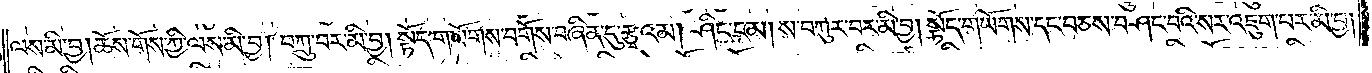ལས་མི་བྱ། ཆོས་གོས་ཀྱི་ལས་མི་བྱ། བཀྲུ་བར་མི་བྱ། སྟོད་གཡོགས་བགོས་བཞིན་དུ་རྩྭའམ། ཤིང་ངམ། ས་བཀུར་བར་མི་བྱ། སྟོད་གཡོགས་དང་བཅས་བཤང་བའི་སར་འཇུག་པར་མི་བྱ།
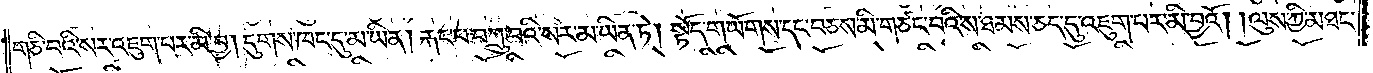གཅི་བའི་སར་འཇུག་པར་མི་བྱ། དུགས་ཁང་དུ་མ་ཡིན། རྐང་པ་བཀྲུ་བའི་སར་མ་ཡིན་ཏེ། སྟོད་གཡོགས་དང་བཅས་མི་གཙང་བའི་ས་ཐམས་ཅད་དུ་འཇུག་པར་མི་བྱའོ། །ལུས་ཀྱི་མཐང་
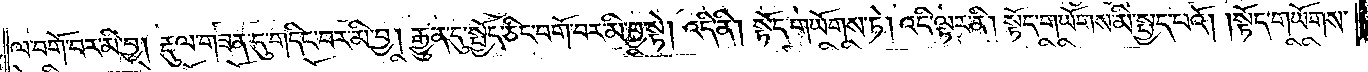ལ་བགོ་བར་མི་བྱ། རྡུལ་གཟན་དུ་གདིང་བར་མི་བྱ། རྒྱུན་དུ་སྤྱོད་ཅིང་བགོ་བར་མི་བྱ་སྟེ། འདི་ནི། སྟོད་གཡོགས་ཏེ། འདི་ལྟར་ནི། སྟོད་གཡོགས་མི་སྤྱད་པའོ། །སྟོད་གཡོགས་
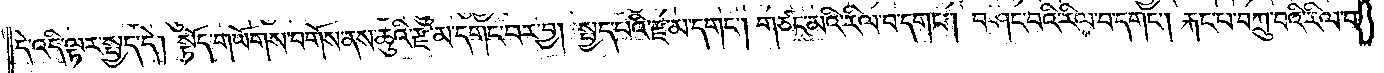དེ་འདི་ལྟར་སྤྱད་དེ། སྟོད་གཡོགས་བགོས་ནས་ཆུའི་རྫ་མ་དགང་བར་བྱ། སྤྱད་པའི་རྫ་མ་དགང༌། གཙང་མའི་རིལ་བ་དགང༌། བཤང་བའི་རིལ་བ་དགང༌། རྐང་པ་བཀྲུ་བའི་རིལ་བ་
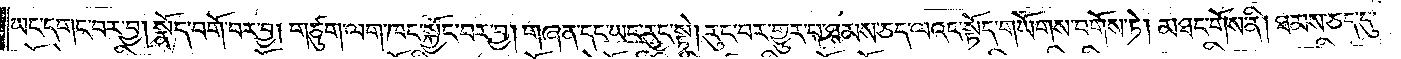ཡང་དགང་བར་བྱ། སྣོད་བགོ་བར་བྱ། གཙུག་ལག་ཁང་སྐྱོང་བར་བྱ། གཞན་དང་ཡང་རུང་སྟེ། རུང་བར་གྱུར་པ་ཐམས་ཅད་ལའང་སྟོད་གཡོགས་བགོས་ཏེ། མཐང་གོས་ནི། ཐམས་ཅད་དུ་
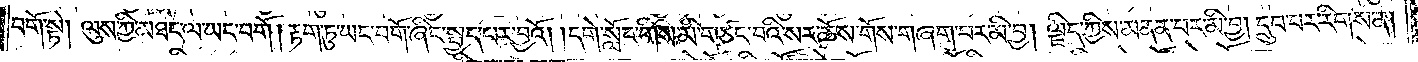བགོ་སྟེ། ལུས་ཀྱི་མཐང་ལ་ཡང་བགོ། རྟག་ཏུ་ཡང་བགོ་ཞིང་སྤྱད་པར་བྱའོ། །དགེ་སློང་གིས་མི་གཙང་བའི་སར་ཆོས་གོས་གཞག་པར་མི་བྱ། ལྗིད་ཀྱིས་མནན་པར་མི་བྱ། དྲུབ་པར་རིགས་ན།
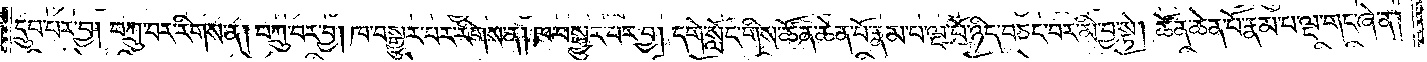དྲུབ་པར་བྱ། བཀྲུ་བར་རིགས་ན། བཀྲུ་བར་བྱ། ཁ་བསྒྱུར་པར་རིགས་ན། ཁ་བསྒྱུར་པར་བྱ། དགེ་སློང་གིས་ཚོན་ཆེན་པོ་རྣམ་པ་ལྔ་པོ་ཉིད་བཅང་བར་མི་བྱ་སྟེ། ཚོན་ཆེན་པོ་རྣམ་པ་ལྔ་གང་ཞེ་ན།
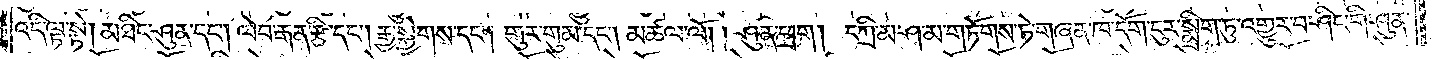འདི་ལྟ་སྟེ། མཐིང་ཤུན་དང༌། ལེབ་རྒན་རྩི་དང༌། རྒྱ་སྐྱེགས་དང༌། གུར་གུམ་དང༌། མཚལ་ལོ། །ཤུན་ཕྲག། དཀྲི་མ་ཤ་མ་གཏོགས་ཏེ་གཞན་ཁ་དོག་ངུར་སྨྲིག་ཏུ་འགྱུར་པ་ཤིང་གི་ཤུན་
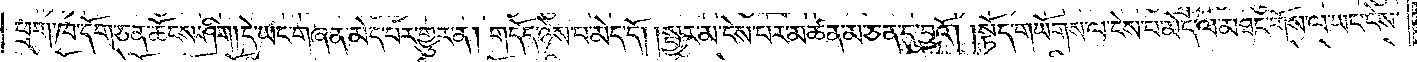ཕྲག་ཁ་དོག་ཅན་ཆོངས་ཤིག །དེ་ཡང་གཞན་མེད་པར་གྱུར་ན། གདོད་ཉེས་པ་མེད་དོ། །སྦྱར་མ་ངེས་པར་མཚན་མ་ཅན་དུ་བྱའོ། །སྟོད་གཡོགས་ལ་ངེས་པ་མེད་ལ་མཐང་གོས་ལ་ཡང་ངེས་
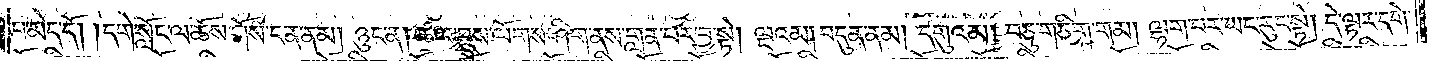པ་མེད་དོ། །དགེ་སློང་ལ་ཆོས་གོས་ངན་ནམ། ཉུང་ན། ཚལ་བུས་ལོགས་ཤིག་ནས་གླན་པར་བྱ་སྟེ། ལྔའམ། བདུན་ནམ། དགུའམ། བཅུ་གཅིག་གམ། ལྷག་པར་ཡང་རུང་སྟེ། དེ་ལྟར་དགེ་
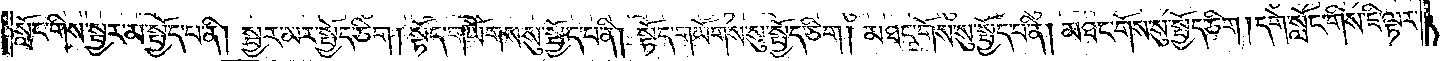སློང་གིས་སྦྱར་མ་སྤྱོད་པ་ནི། སྦྱར་མར་སྤྱོད་ཅིག །སྟོད་གཡོགས་སུ་སྤྱོད་པ་ནི། སྟོད་གཡོགས་སུ་སྤྱོད་ཅིག །མཐང་གོས་སུ་སྤྱོད་པ་ནི། མཐང་གོས་སུ་སྤྱོད་ཅིག །དགེ་སློང་གིས་ཇི་ལྟར་
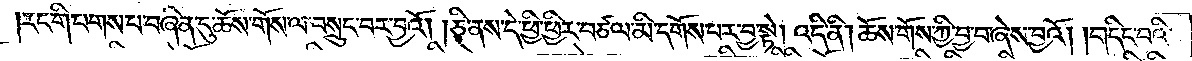རང་གི་པགས་པ་བཞིན་དུ་ཆོས་གོས་ལ་བསྲུང་བར་བྱའོ། །ཅི་ནས་དེ་ཕྱི་ཕྱིར་བཙལ་མི་དགོས་པར་བྱ་སྟེ། འདི་ནི། ཆོས་གོས་ཀྱི་བྱ་བ་ཞེས་བྱའོ། །གདིང་བའི་
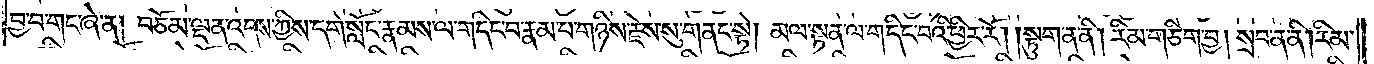བྱ་བ་གང་ཞེ་ན། བཅོམ་ལྡན་འདས་ཀྱིས་དགེ་སློང་རྣམས་ལ་གདིང་བ་རྣམ་པ་གཉིས་རྗེས་སུ་གནང་སྟེ། མལ་སྟན་ལ་གདིང་བའི་ཕྱིར་རོ། །སྟུག་ན་ནི། རིམ་གཅིག་བྱ། སྲབ་ན་ནི། རིམ་
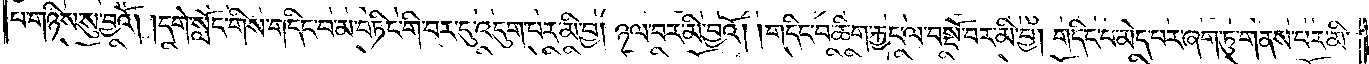པ་གཉིས་སུ་བྱའོ། །དགེ་སློང་གིས་གདིང་བ་མ་བཏིང་གི་བར་དུ་འདུག་པར་མི་བྱ། ཉལ་བར་མི་བྱའོ། །གདིང་བ་ཆིག་རྐྱང་ལ་བསྔོ་བར་མི་བྱ། གདིང་བ་མེད་པར་ཞག་ཏུ་གནས་པར་མི་
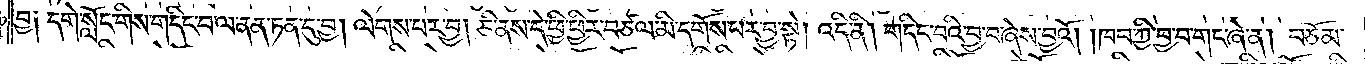བྱ༑ དགེ་སློང་གིས་གདིང་བ་ལ་ནན་ཏན་དུ་བྱ། ལེགས་པར་བྱ། ཅི་ནས་དེ་ཕྱི་ཕྱིར་བཙལ་མི་དགོས་པར་བྱ་སྟེ། འདི་ནི། གདིང་བའི་བྱ་བ་ཞེས་བྱའོ། །ཁབ་ཀྱི་བྱ་བ་གང་ཞེ་ན། བཅོམ་
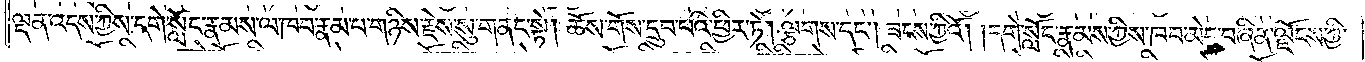ལྡན་འདས་ཀྱིས་དགེ་སློང་རྣམས་ལ་ཁབ་རྣམ་པ་གཉིས་རྗེས་སུ་གནང་སྟེ། ཆོས་གོས་དྲུབ་པའི་ཕྱིར་ཏེ། ལྕགས་དང༌། ཟངས་ཀྱིའོ། །དགེ་སློང་རྣམས་ཀྱིས་ཁབ་མེད་བཞིན་ལྗོངས་ཀྱི་
